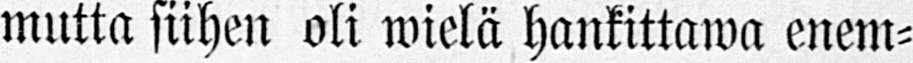mutta siihen oli wielä hankittawa enem-
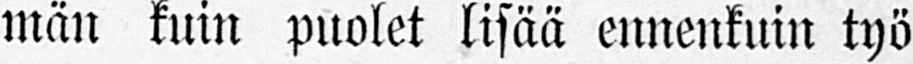män kuin puolet lisää ennenkuin työ
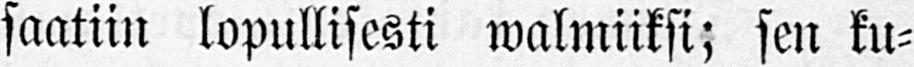saatiin lopullisesti walmiiksi; sen ku-
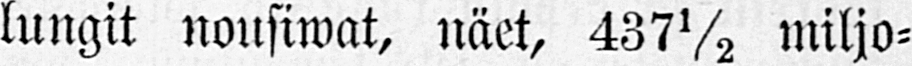lungit nousiwat, näet, 437½ miljo-
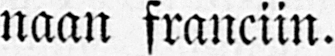naan franciin.
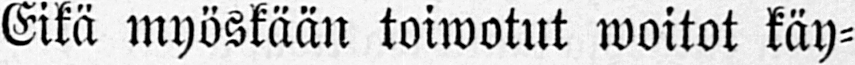Eikä myöskään toiwotut woitot käy-
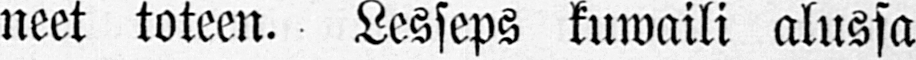neet toteen. Lesseps kuwaili alussa
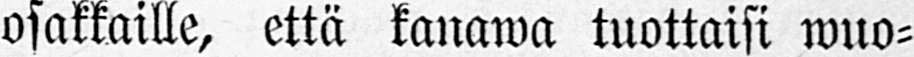osakkaille, että kanawa tuottaisi wuo-
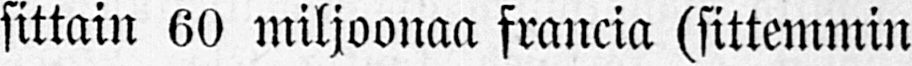sittain 60 miljoonaa francia (sittemmin
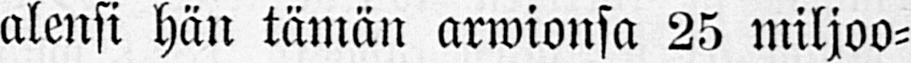alensi hän tämän arwionsa 25 miljoo-
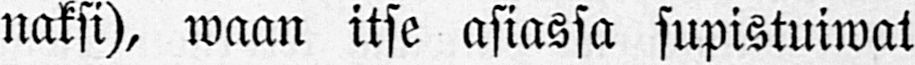naksi), waan itse asiassa supistuiwat
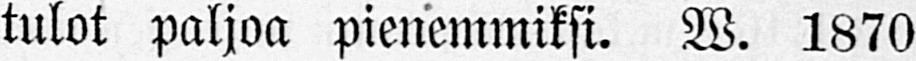tulot paljoa pienemmiksi. W. 1870
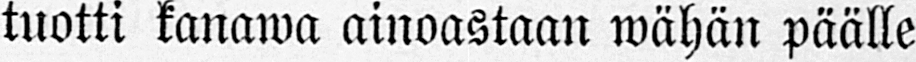tuotti kanawa ainoastaan wähän päälle
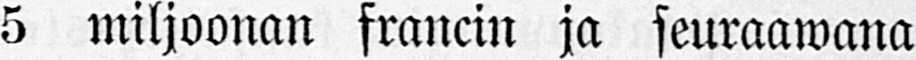5 miljoonan francin ja seuraawana
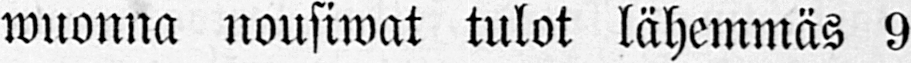wuonna nousiwat tulot lähemmäs 9
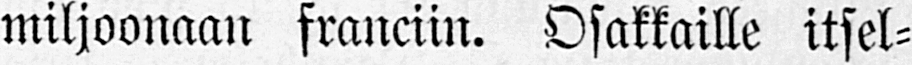miljoonaan franciin. Osakkaille itsel-
